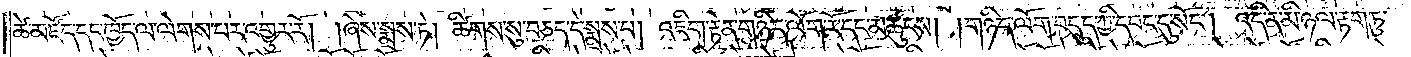ཚེ་མཛོད་དང་ཁྱོད་ལ་ལེགས་པར་འགྱུར་རོ། །ཞེས་སྨྲས་ཏེ། ཚིགས་སུ་བཅད་དེ་སྨྲས་པ། འཇིག་རྟེན་གཉིད་ལོག་རོ་དང་མཚུངས། །གཉིད་ལོག་བདུད་ཀྱི་དབང་དུ་སོང༌། འདི་ན་མི་ཉལ་རྟག་ཏུ་
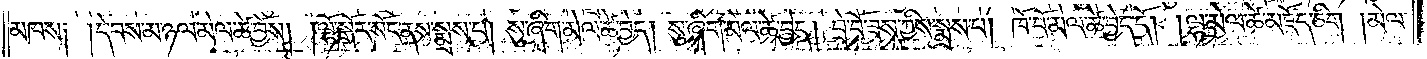མཁས༑ །དེ་བས་མ་ཉལ་མེལ་ཚེ་བྱོས། །ལྷོ་སྒོར་སོང་ནས་སྨྲས་པ། སུ་ཞིག་མེལ་ཚེ་བྱེད། སུ་ཞིག་མེལ་ཚེ་བྱེད། བྲེ་བོ་ཟས་ཀྱིས་སྨྲས་པ། ཁོ་བོ་མེལ་ཚེ་བྱེད་དོ། །ལྷ་མེལ་ཚེ་མཛོད་ཅིག །མེལ་
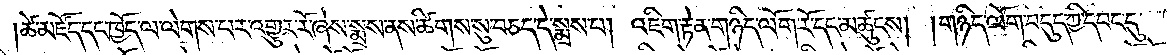།ཚེ་མཛོད་དང་ཁྱོད་ལ་ལེགས་པར་འགྱུར་རོ་ཞེས་སྨྲས་ནས་ཚིགས་སུ་བཅད་དེ་སྨྲས་པ། འཇིག་རྟེན་གཉིད་ལོག་རོ་དང་མཚུངས། །གཉིད་ལོག་བདུད་ཀྱི་དབང་དུ་
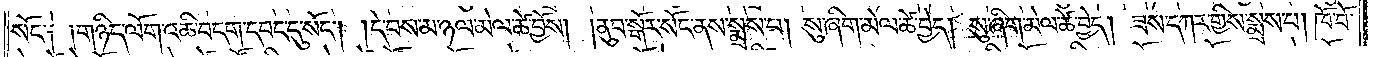སོང་༑ །གཉིད་ལོག་འཆི་བདག་དབང་དུ་སོང༌། །དེ་བས་མ་ཉལ་མེལ་ཚེ་བྱོས། །ནུབ་སྒོར་སོང་ནས་སྨྲས་པ། སུ་ཞིག་མེལ་ཚེ་བྱེད། སུ་ཞིག་མེལ་ཚེ་བྱེད། ཟས་དཀར་གྱིས་སྨྲས་པ། ཁོ་བོ་
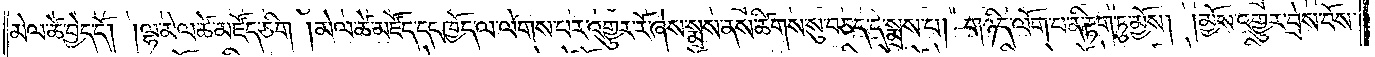མེལ་ཚེ་བྱེད་དོ། །ལྷ་མེལ་ཚེ་མཛོད་ཅིག །མེལ་ཚེ་མཛོད་དང་ཁྱོད་ལ་ལེགས་པར་འགྱུར་རོ་ཞེས་སྨྲས་ནས་ཚིགས་སུ་བཅད་དེ་སྨྲས་པ། གཉིད་ལོག་པ་ནི་རྟག་ཏུ་མྱོས། །མྱོས་འགྱུར་བྲེས་བོས་
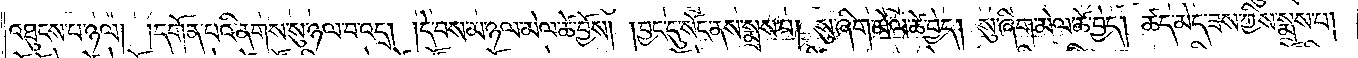འཐུངས་པ་ཉལ། །དགོན་པའི་ནགས་སུ་ཉལ་བ་འདྲ། །དེ་བས་མ་ཉལ་མེལ་ཚེ་བྱོས། །བྱང་དུ་སོང་ནས་སྨྲས་པ། སུ་ཞིག་མེལ་ཚེ་བྱེད། སུ་ཞིག་མེལ་ཚེ་བྱེད། ཚད་མེད་ཟས་ཀྱིས་སྨྲས་པ།
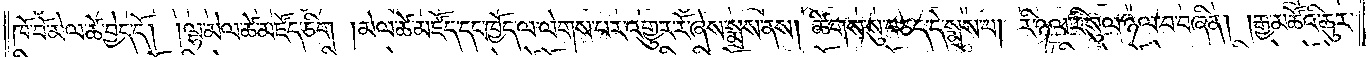ཁོ་བོ་མེལ་ཚེ་བྱེད་དོ། །ལྷ་མེལ་ཚེ་མཛོད་ཅིག །མེལ་ཚེ་མཛོད་དང་ཁྱོད་ལ་ལེགས་པར་འགྱུར་རོ་ཞེས་སྨྲས་ནས། ཚིགས་སུ་བཅད་དེ་སྨྲས་པ། རི་ཉལ་རི་སུལ་ཉལ་བ་བཞིན། །རྒྱ་མཚོའི་ཆུར་
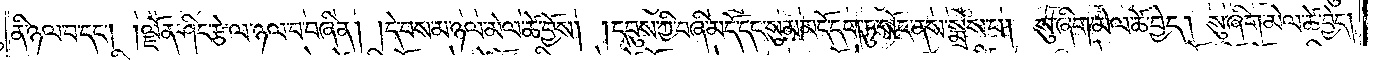ནི་ཉལ་བ་དང༌། །ལྗོན་ཤིང་རྩེ་ལ་ཉལ་བ་བཞིན། །དེ་བས་མ་ཉལ་མེལ་ཚེ་བྱོས། །དབུས་ཀྱི་བཞི་མདོ་དང་སུམ་མདོ་དག་ཏུ་སོང་ནས་སྨྲས་པ། སུ་ཞིག་མེལ་ཚེ་བྱེད། སུ་ཞིག་མེལ་ཚེ་བྱེད།
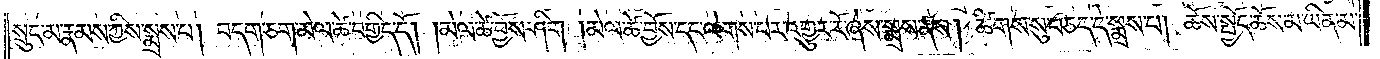སྲུང་མ་རྣམས་ཀྱིས་སྨྲས་པ། བདག་ཅག་མེལ་ཚེ་བགྱིད་དོ། །མེལ་ཚེ་བྱོས་ཤིག །མེལ་ཚེ་བྱོས་དང་ལེགས་པར་འགྱུར་རོ་ཞེས་སྨྲས་ནས། ཚིགས་སུ་བཅད་དེ་སྨྲས་པ། ཆོས་སྤྱོད་ཆོས་མ་ཡིན་མ་
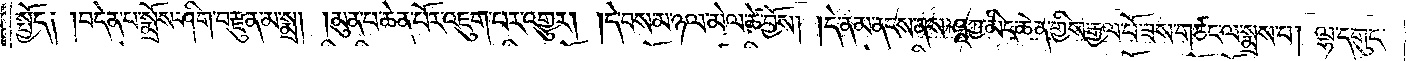སྤྱོད༑ ༑བདེན་པ་སྨྲོས་ཤིག་བརྫུན་མ་སྨྲ། །མུན་པ་ཆེན་པོར་འཇུག་པར་འགྱུར། །དེ་བས་མ་ཉལ་མེལ་ཚེ་བྱོས། །དེ་ནམ་ནངས་ནས་ཤཱཀྱ་མིང་ཆེན་གྱིས་རྒྱལ་པོ་ཟས་གཙང་ལ་སྨྲས་པ། ལྷ་དགུང་
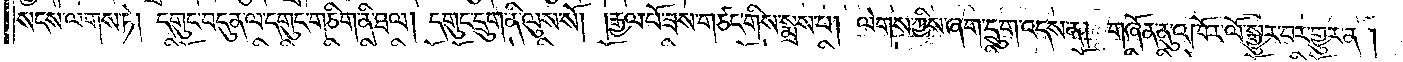སངས་ལགས་ཏེ། དགུང་བདུན་ལ་དགུང་གཅིག་ནི་ཐལ། དགུང་དྲུག་ནི་ལུས་སོ། །རྒྱལ་པོ་ཟས་གཙང་གིས་སྨྲས་པ། ལེགས་ཀྱིས་ཞག་དྲུག་འདས་ན། གཞོན་ནུ་འཁོར་ལོ་སྒྱུར་བར་གྱུར་ན།
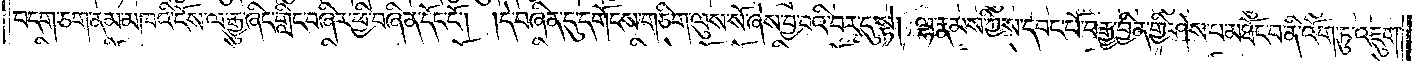བདག་ཅག་ནམ་མཁའི་ངོས་ལ་རྒྱུ་ཞིང་གླིང་བཞིར་ཕྱི་བཞིན་དོང་ངོ༌། །དེ་བཞིན་དུ་དགོངས་གཅིག་ལུས་སོ་ཞེས་བྱ་བའི་བར་དུ་སྟེ། ལྷ་རྣམས་ཀྱིས་དབང་པོ་བརྒྱ་བྱིན་གྱི་ཤེས་པ་མཐོང་བ་ནི་འོག་ཏུ་འཇུག་
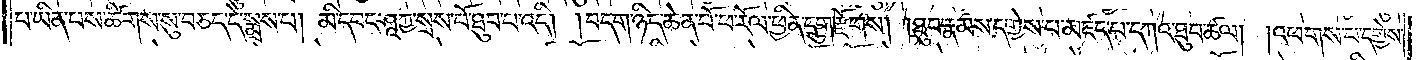པ་ཡིན་པས་ཚིགས་སུ་བཅད་དེ་སྨྲས་པ། མི་དབང་ཤཱཀྱ་སྲས་པོ་ཐུབ་པ་འདི། །བདག་ཉིད་ཆེན་པོ་ཕ་རོལ་ཕྱིན་དྲུག་རྫོགས། །ཐུབ་རྣམས་དགྱེས་པ་མཛད་པ་དཀའ་ཐུབ་ཚལ། །འཕགས་པ་དགྱེས་
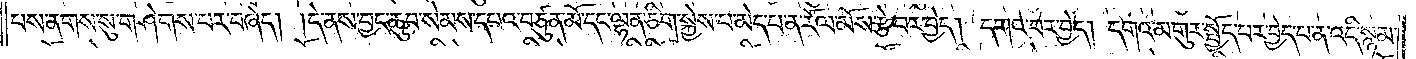པས་ནགས་སུ་གཤེགས་པར་བཞེད། །དེ་ནས་བྱང་ཆུབ་སེམས་དཔའ་བཙུན་མོ་དང་ལྷན་ཅིག་སྐྱེས་པ་མེད་པ་ན་རོལ་མོས་རྩེ་བར་བྱེད། དགའ་བར་བྱེད། དགའ་མགུར་སྤྱོད་པར་བྱེད་པ་ན་འདི་སྙམ་
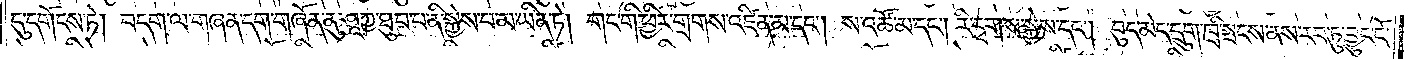དུ་དགོངས་ཏེ། བདག་ལ་གཞན་དག་གཞོན་ནུ་ཤཱཀྱ་ཐུབ་པ་ནི་སྐྱེས་པ་མ་ཡིན་ཏེ། གང་གི་ཕྱིར་གྲགས་འཛིན་མ་དང༌། ས་འཚོ་མ་དང༌། རི་དྭགས་སྐྱེས་དང༌། བུད་མེད་དྲུག་ཁྲི་སྤངས་ནས་རབ་ཏུ་བྱུང་ངོ་
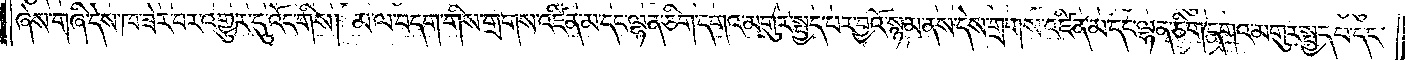ཞེས་གཞི་དེས་ཁ་ཟེར་བར་འགྱུར་དུ་འོང་གིས། །མ་ལ་བདག་གིས་གྲགས་འཛིན་མ་དང་ལྷན་ཅིག་དགའ་མགུར་སྤྱད་པར་བྱའོ་སྙམ་ནས་དེས་གྲགས་འཛིན་མ་དང་ལྷན་ཅིག་དགའ་མགུར་སྤྱད་པ་དང་
